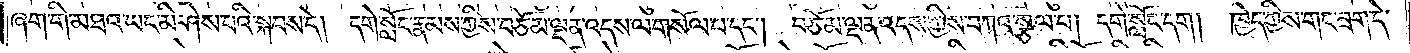ཞག་གི་མཐའ་ཡང་མི་ཤེས་པའི་སྐབས་དེ། དགེ་སློང་རྣམས་ཀྱིས་བཅོམ་ལྡན་འདས་ལ་གསོལ་བ་དང༌། བཅོམ་ལྡན་འདས་ཀྱིས་བཀའ་སྩལ་པ། དགེ་སློང་དག། ཁྱེད་ཀྱིས་གང་ཟག་དེ་
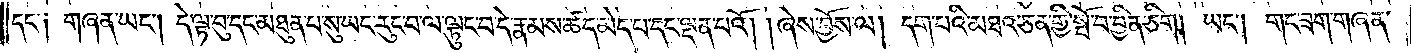དང༌། གཞན་ཡང༌། དེ་ལྟ་བུ་དང་མཐུན་པ་སུ་ཡང་རུང་བ་ལ་ལྟུང་བ་དེ་རྣམས་ཚད་མེད་པ་དང་ལྡན་པའོ། །ཞེས་བྱོས་ལ། དག་པའི་མཐའ་ཅན་གྱི་སྤོ་བ་བྱིན་ཅིག། ཡང༌། གང་ཟག་གཞན་
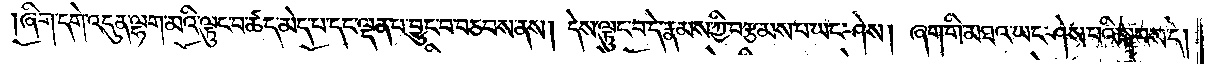ཞིག་དགེ་འདུན་ལྷག་མའི་ལྟུང་བ་ཚད་མེད་པ་དང་ལྡན་པ་བྱུང་བ་བཅབས་ནས། དེས་ལྟུང་བ་དེ་རྣམས་ཀྱི་བརྩམས་པ་ཡང་ཤེས། ཞག་གི་མཐའ་ཡང་ཤེས་པའི་སྐབས་དེ།
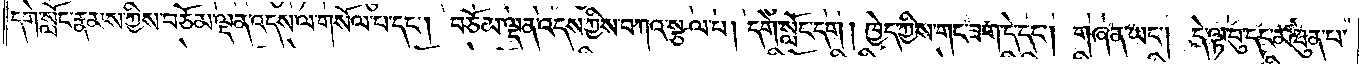དགེ་སློང་རྣམས་ཀྱིས་བཅོམ་ལྡན་འདས་ལ་གསོལ་པ་དང༌། བཅོམ་ལྡན་འདས་ཀྱིས་བཀའ་སྩལ་པ། དགེ་སློང་དག། ཁྱེད་ཀྱིས་གང་ཟག་དེ་དང༌། གཞན་ཡང༌། དེ་ལྟ་བུ་དང་མཐུན་པ་
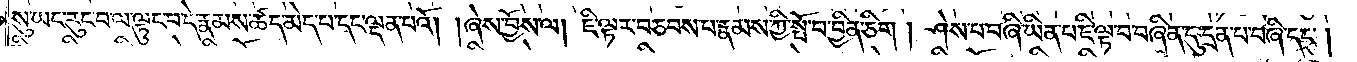སུ་ཡང་རུང་བ་ལ་ལྟུང་བ་དེ་རྣམས་ཚད་མེད་པ་དང་ལྡན་པའོ། །ཞེས་བྱོས་ལ། ཇི་ལྟར་བཅབས་པ་རྣམས་ཀྱི་སྤོ་བ་བྱིན་ཅིག། ཤེས་པ་བཞི་ཡིན་པ་ཇི་ལྟ་བ་བཞིན་དུ་དྲན་པ་བཞི་དང༌།
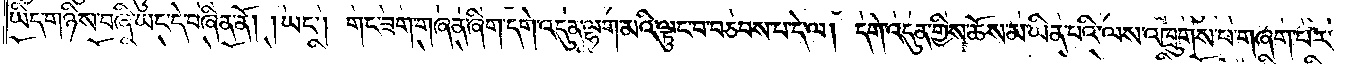ཡིད་གཉིས་བཞི་ཡང་དེ་བཞིན་ནོ། །ཡང༌། གང་ཟག་གཞན་ཞིག་དགེ་འདུན་ལྷག་མའི་ལྟུང་བ་བཅབས་པ་དེ་ལ། དགེ་འདུན་གྱིས་ཆོས་མ་ཡིན་པའི་ལས་འཁྲུགས་པ་གཞག་པར་
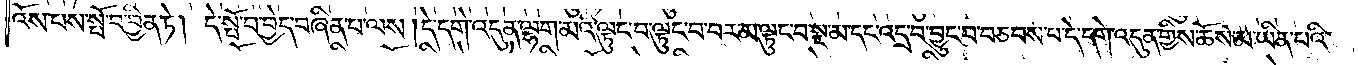འོས་པས་སྤོ་བ་བྱིན་ཏེ། དེ་སྤོ་བ་བྱེད་བཞིན་པ་ལས། དེ་དགེ་འདུན་ལྷག་མའི་ལྟུང་བ་ལྟུང་བ་བར་མ་ལྟུང་བ་སྔ་མ་དང་འདྲ་བ་བྱུང་བ་བཅབས་པ་དེ་དགེ་འདུན་གྱིས་ཆོས་མ་ཡིན་པའི་
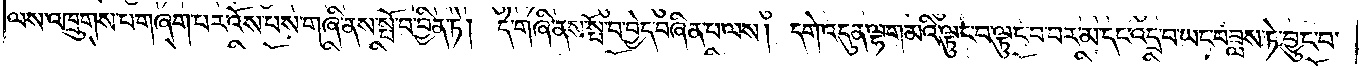ལས་འཁྲུགས་པ་གཞག་པར་འོས་པས་གཞི་ནས་སྤོ་བ་བྱིན་ཏེ། དེ་གཞི་ནས་སྤོ་བ་བྱེད་བཞིན་པ་ལས། དགེ་འདུན་ལྷག་མའི་ལྟུང་བ་ལྟུང་བ་བར་མ་དང་འདྲ་བ་ཡང་བཟླས་ཏེ་བྱུང་བ་
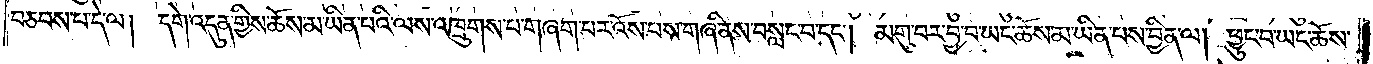བཅབས་པ་དེ་ལ། དགེ་འདུན་གྱིས་ཆོས་མ་ཡིན་པའི་ལས་འཁྲུགས་པ་གཞག་པར་འོས་པས་གཞི་ནས་བསླང་བ་དང༌། མགུ་བར་བྱ་བ་ཡང་ཆོས་མ་ཡིན་པས་བྱིན་ལ། ཕྱུང་བ་ཡང་ཆོས་
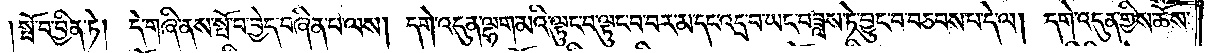།སྤོ་བ་བྱིན་ཏེ། དེ་གཞི་ནས་སྤོ་བ་བྱེད་བཞིན་པ་ལས། དགེ་འདུན་ལྷག་མའི་ལྟུང་བ་ལྟུང་བ་བར་མ་དང་འདྲ་བ་ཡང་བཟླས་ཏེ་བྱུང་བ་བཅབས་པ་དེ་ལ། དགེ་འདུན་གྱིས་ཆོས་
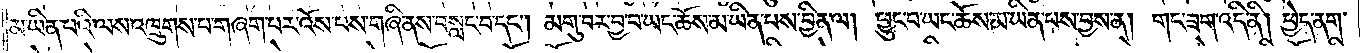མ་ཡིན་པའི་ལས་འཁྲུགས་པ་གཞག་པར་འོས་པས་གཞི་ནས་བསླང་བ་དང༌། མགུ་བར་བྱ་བ་ཡང་ཆོས་མ་ཡིན་པས་བྱིན་ལ། ཕྱུང་བ་ཡང་ཆོས་མ་ཡིན་པས་བྱས་ན། གང་ཟག་འདི་ནི། ཕྱེད་ནག་
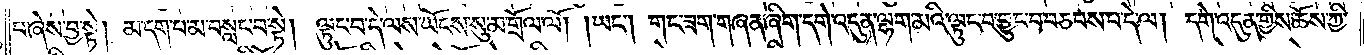པ་ཞེས་བྱ་སྟེ། མ་དག་པ་མ་བསླང་བ་སྟེ། ལྟུང་བ་དེ་ལས་ཡོངས་སུ་མ་གྲོལ་ལོ། །ཡང༌། གང་ཟག་གཞན་ཞིག་དགེ་འདུན་ལྷག་མའི་ལྟུང་བ་བྱུང་བ་བཅབས་པ་དེ་ལ། དགེ་འདུན་གྱིས་ཆོས་ཀྱི་
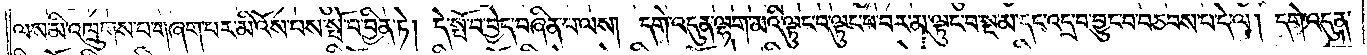ལས་མི་འཁྲུགས་པ་གཞག་པར་མི་འོས་པས་སྤོ་བ་བྱིན་ཏེ། དེ་སྤོ་བ་བྱེད་བཞིན་པ་ལས། དགེ་འདུན་ལྷག་མའི་ལྟུང་བ་ལྟུང་བ་བར་མ་ལྟུང་བ་སྔ་མ་དང་འདྲ་བ་བྱུང་བ་བཅབས་པ་དེ་ལ། དགེ་འདུན་
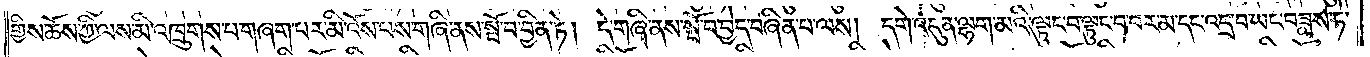གྱིས་ཆོས་ཀྱི་ལས་མི་འཁྲུགས་པ་གཞག་པར་མི་འོས་པས་གཞི་ནས་སྤོ་བ་བྱིན་ཏེ། དེ་གཞི་ནས་སྤོ་བ་བྱེད་བཞིན་པ་ལས། དགེ་འདུན་ལྷག་མའི་ལྟུང་བ་ལྟུང་བ་བར་མ་དང་འདྲ་བ་ཡང་བཟླས་ཏེ་
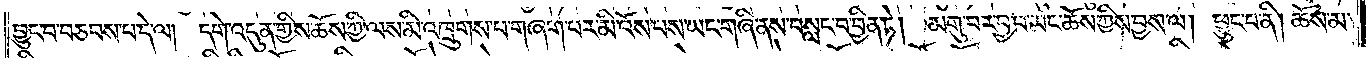བྱུང་བ་བཅབས་པ་དེ་ལ། དགེ་འདུན་གྱིས་ཆོས་ཀྱི་ལས་མི་འཁྲུགས་པ་གཞག་པར་མི་འོས་པས་ཡང་གཞི་ནས་བསླང་བ་བྱིན་ཏེ། མགུ་བར་བྱ་བ་ཡང་ཆོས་ཀྱིས་བྱས་ལ། ཕྱུང་བ་ནི། ཆོས་མ་
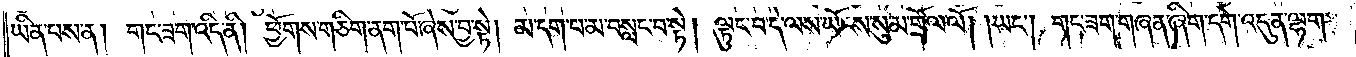ཡིན་པས་ན། གང་ཟག་འདི་ནི། ཕྱོགས་གཅིག་ནག་པོ་ཞེས་བྱ་སྟེ། མ་དག་པ་མ་བསླང་བ་སྟེ། ལྟུང་བ་དེ་ལས་ཡོངས་སུ་མ་གྲོལ་ལོ། །ཡང༌། གང་ཟག་གཞན་ཞིག་དགེ་འདུན་ལྷག་
